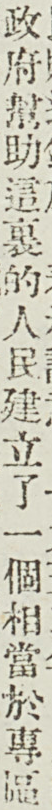政府幫助這裏的人民建立了一個相當於專區
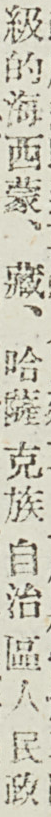級的海西蒙、藏、哈薩克族自治區人民政
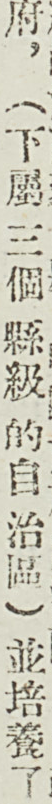府，（下屬三個縣級的自治區）並培養了
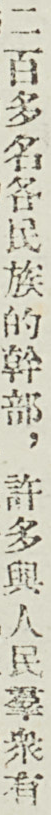二百多名各民族的幹部，許多與人民羣衆有
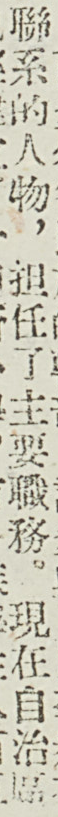聯系的任務，担任了主要職務。現在自治區
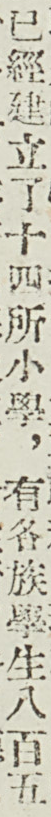已經建立了十四所小學，有各族學生八百五
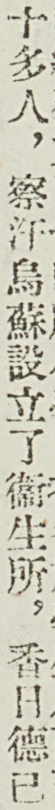十多人，察汗烏蘇設立了衛生所，香日德已
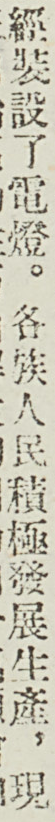經裝設了電燈。各族人民積極發展生產，現
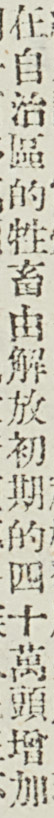在自治區的牲畜由解放初期的四十萬頭增加
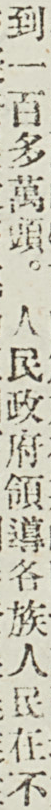到一百多萬頭。人民政府領導各族人民在不
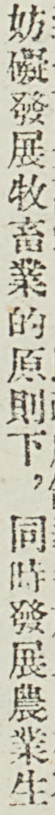妨礙發展牧畜業的原則下，同時發展農業生
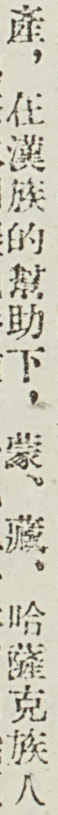產，在漢族的幫助下，蒙、藏、哈薩克族人
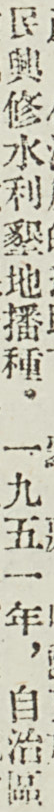民興修水利墾地播種。一九五一年，自治區
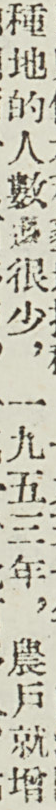種地的人數還很少，一九五三年，農戶就增
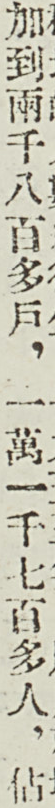加到兩千八百多戶，一萬一千七百多人，佔
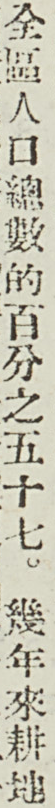全區人口總數的百分之五十七。幾年來耕地
